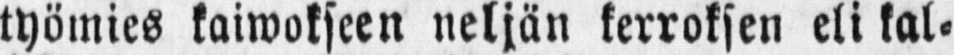työmies kaiwokseen neljän kerroksen eli kal-
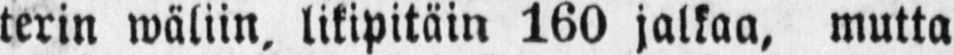terin wäliin, likipitäin 160 jalkaa, mutta
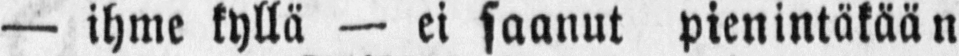— ihme kyllä — ei saanut pienintäkään
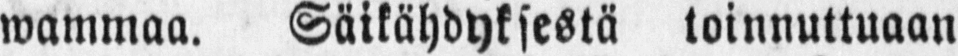wammaa. Säikähdyksestä toinnuttuaan
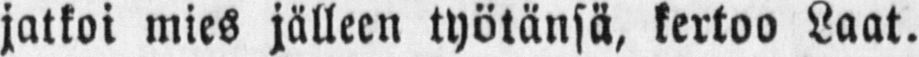jatkoi mies jälleen työtänsä, kertoo Laat.
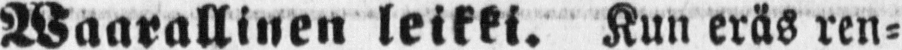Waarallinen leikki. Kun eräs ren-
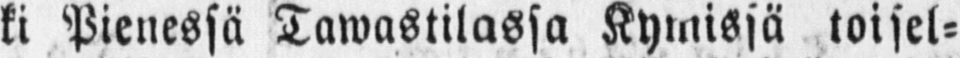ki Pienessä Tawastilassa Kymissä toisel-
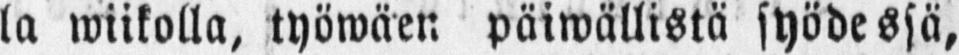la wiikolla, työwäen päiwällistä syödessä,
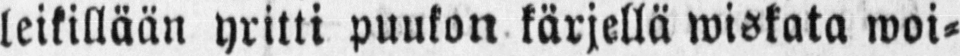leikillään yritti puukon kärjellä wiskata woi-
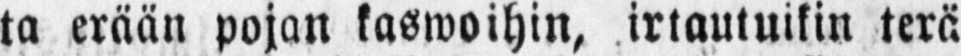ta erään pojan kaswoihin, irtautuikin terä
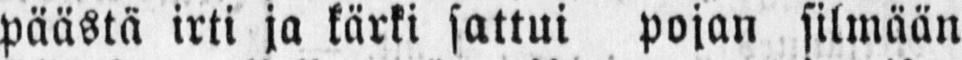päästä irti ja kärki sattui pojan silmään
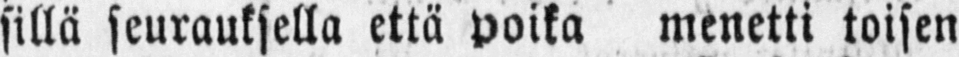sillä seurauksella että poika menetti toisen
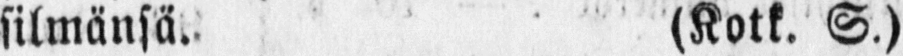silmänsä. (Kotk. S.)
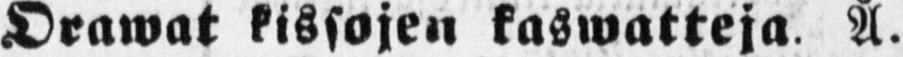Orawat kissojen kaswatteja. Å.
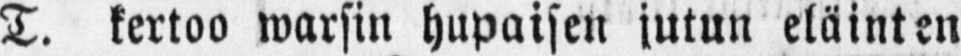T. kertoo warsin hupaisen jutun eläinten
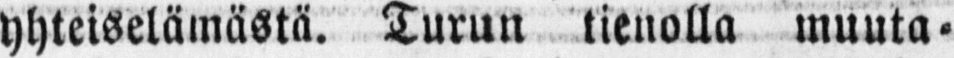yhteiselämästä. Turun tienolla muuta-
